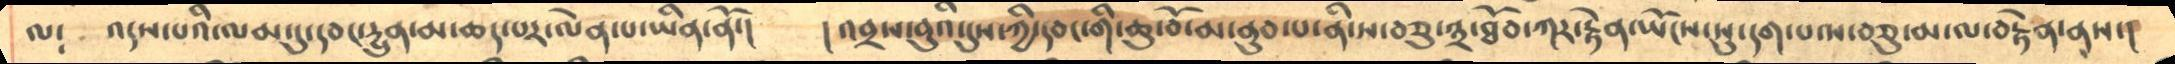ལ༴    འདས་པའི་ལམ་དུ་དབང་དྱུན་མ་ཆད་པར་ལེན་པ་ཡིན་ནོ་།    །འབྲས་བུའི་དུས་ཀྱི་དབང་གི་ཆུ་བོ་མ་ནུབ་པ་ནི་ས་བཅུ་༣་ཐོབ་ཀར་རྟེན་ཡོངས་སུ་དག་པ་ས་བཅུ་མ་ལ་བརྟེན་ནས་།
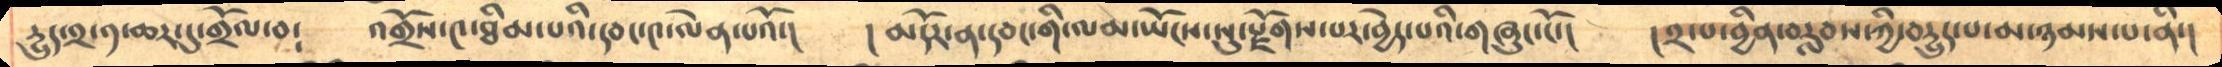དྱུད་༢་༡་ཆར་དུ་གྲོལ་བ༴     འགྲོས་༤་ཐིམ་པའི་དབང་༤་ལེན་པའོ་།   །མདོར་ན་དབང་གི་ལམ་ཡོངས་སུ་རྫོགས་པར་བྱེད་པའི་གཞུང་ངོ་།    །༢་པ་བྱིན་བརླབས་ཀྱི་བདྱུད་པ་མ་ཉམས་པ་ནི་།
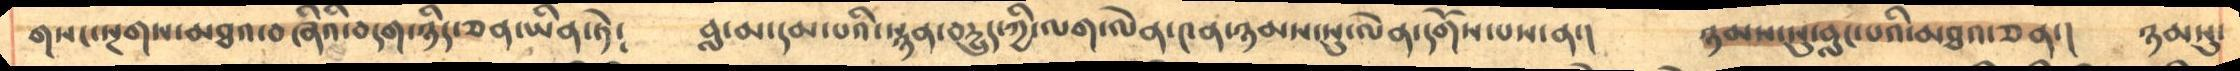གསང་སྔགས་མཐའ་བཞིའི་བདག་ཉིད་ཅན་ཡིན་ཏེ༴    བླ་མ་དམ་པའི་སྙན་བདྱུད་ཀྱི་ལག་ལེན་༤ན་ཉམས་སུ་ལེན་དགོས་པས་ན་།    ཉམས་སུ་བླང་པའི་མཐའ་ཅན་།   ཉམསུ་
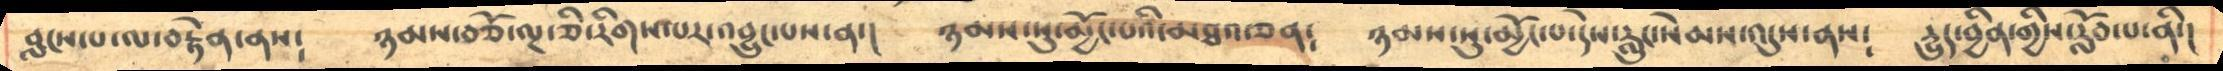བླངས་པ་ལ་བརྟེན་ནས༴    ཉམས་བཅོ་ལྔ་ཅི་རིགས་པར་འབྱུང་པས་ན་།    ཉམས་སུ་མྱོང་པའི་མཐའ་ཅན༴   ཉམས་སུ་མྱོང་པ་དེས་རླུང་སེམས་འདུས་ནས༴    རླུད་བྱིན་གྱིས་རློབ་པ་ནི་།
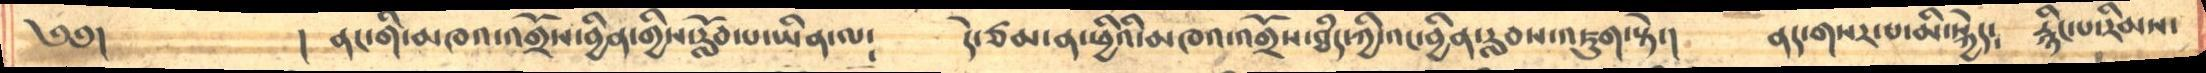༄༅།          ། ནང་གི་མཁའ་འགྲོས་བྱིན་གྱིས་རློབ་པ་ཡིན་ལ༴    དེ་ཙམ་ན་ཕྱིའི་མཁའ་འགྲོས་ཐཾད་ཀྱི་འང་བྱིན་རླབས་འཇུག་སྟེ་།   ནད་གསར་པ་མི་སྐྱེད༴   རྙིང་པ་རིམས་
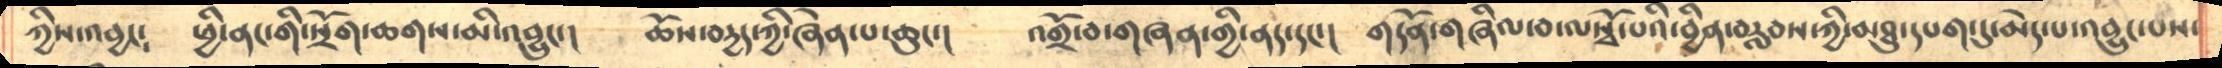ཀྱིས་འབྱང༴   ཕྱི་ནང་གི་སྲོག་ཆགས་མི་འབྱུང་།    ཆོས་བདྱད་ཀྱི་ཞེན་པ་ཆུང་།    འགྲོ་བ་གཞན་གྱི་ནད་དང་།    གདོན་གཞིལ་བ་ལསྭོ་པའི་བྱིན་བརླབས་ཀྱི་མཐུ་དཔག་དུ་མེད་པ་འབྱུང་པས་
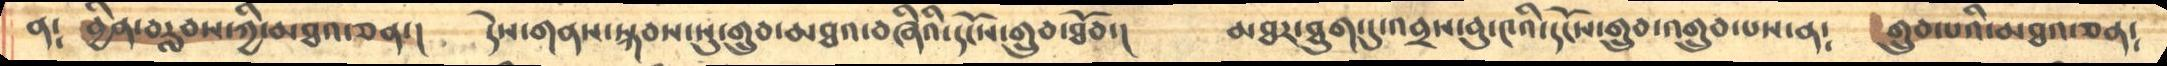ན༴   བྱིན་བརླབས་ཀྱི་མཐའ་ཅན་།    དེས་གནས་སྐབས་སུ་གྲུབ་མཐའ་བཞིའི་དངོས་གྲུབ་ཐོབ་།     མཐར་ཐུག་དུ་འབྲས་བུ་༤འི་དངོས་གྲུབ་འགྲུབ་པས་ན༴   གྲུབ་པའི་མཐའ་ཅན༴
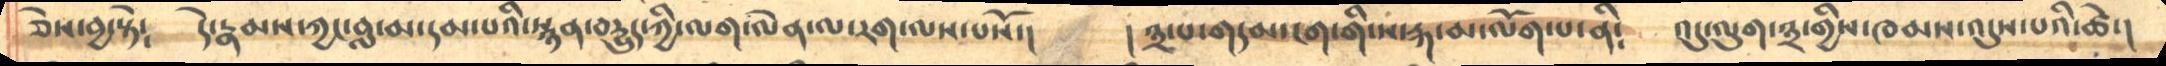ཅེས་བྱ་སྟེ༴   དེ་རྣམས་ཀྱང་བླ་མ་དམ་པའི་སྙན་བདྱུད་ཀྱི་ལག་ལེན་ལ་རག་ལས་པསོ་།    །༣་པ་གདམ་ངག་གི་ས་རྐ་མ་ལོག་པ་ནི༴    འདུ་ལུག་༣་གྱིས་ཁམས་འདུས་པའི་ཚེ་།
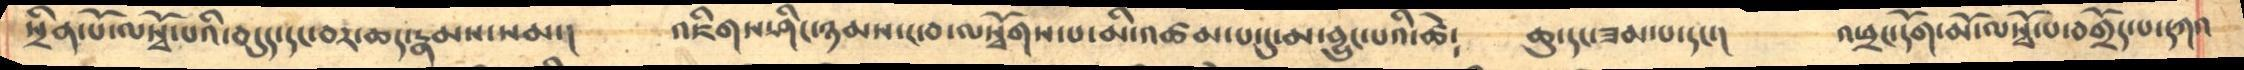སྲིན་པོ་ལསྭོ་པའི་བདུད་དང་བར་ཆད་རྣམས་སམ་།    འཇིགས་ཤིང་ཉམས་ང་བ་ལསྭོགས་པ་མི་འཚམ་པ་དུ་མ་བྱུང་པའི་ཚེ༴    ཆུ་དང་ཟམ་པ་དང་།    འཕྲང་དོག་མོ་ལསྭོ་པ་བགྲོད་པ་དཀའ
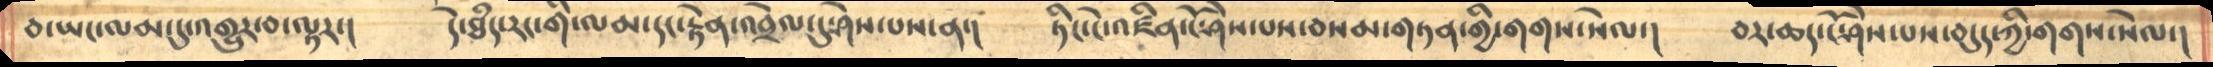བ་ཡང་ལམ་དུ་འགྱུར་བ་ལྟར་།     དེ་ཐཾད་དང་གི་ལམ་དང་རྟེན་འབྲེལ་དུ་ཤེས་པས་ན་།    ཏིང་ངེ་འཛིན་ངོ་ཤེས་པས་བསམ་གཏན་གྱི་གགས་སེལ་།    བར་ཆད་ངོ་ཤེས་པས་བདུད་ཀྱི་གགས་སེལ་།
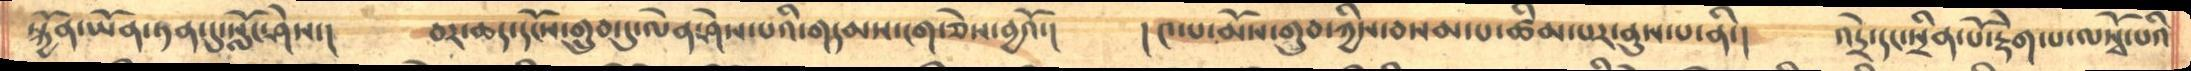སྐྱོན་ཡོན་ཏན་དུ་སློང་ཤེས་།    བར་ཆད་དངོས་གྲུབ་དུ་ལེན་ཤེས་པའི་གདམས་ངག་ཅེས་བྱའོ་།    །༤་པ་མོས་གྲུབ་ཀྱིས་བསམ་པ་ཚིམ་པར་ནུས་པ་ནི་།  འདྲེ་དང་སྲིན་པོ་རྡེག་པ་ལསྭོ་པའི
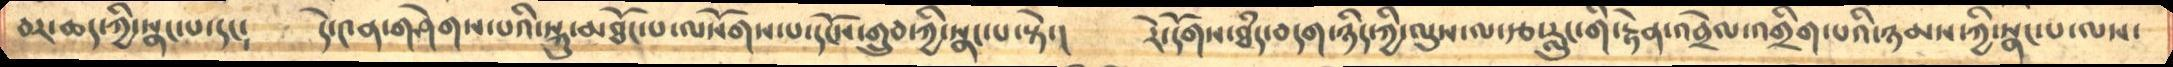བར་ཆད་ཀྱི་སྣང་པ་དང༴     དེ་༤ན་གཤེགས་པའི་སྐུ་མཐོང་པ་ལསོགས་པ་དངོས་གྲུབ་ཀྱི་སྣང་པ་སྟེ་།    རེ་དོགས་ཐཾད་བདག་ཉིད་ཀྱི་ལུས་ལ་རྩ་རླུང་གི་རྟེན་འབྲེལ་འགྲིག་པའི་ཉམས་ཀྱི་སྣང་བ་ལས་
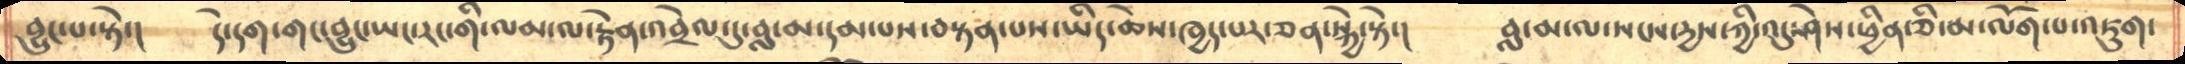བྱུང་པ་སྟེ་།     དེ་དག་གང་བྱུང་ཡང་རང་གི་ལམ་ལ་རྟེན་འབྲེལ་དུ་བླ་མ་དམ་པས་བསྟན་པས་ཡིད་ཆེས་ཁྱད་པར་ཅན་སྐྱེ་སྟེ་།    བླ་མ་ལ་སངས་དྱས་ཀྱི་འདུ་ཤེས་ཕྱིན་ཅི་མ་ལོག་པ་འཇུག་
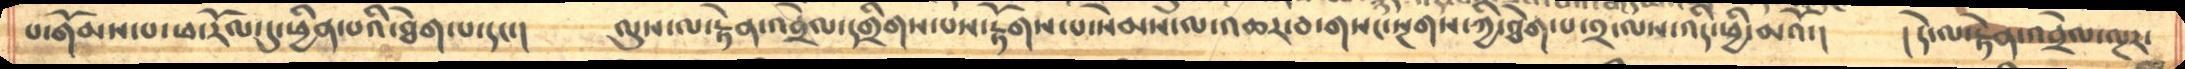པ་གོམས་པ་ཕ་རོལ་དུ་ཕྱིན་པའི་ཐེག་པ་དང་།     ལུས་ལ་རྟེན་འབྲེལ་དགྲིགས་པས་རྟོགས་པ་སེམས་ལ་འཆར་བ་གསང་སྔགས་ཀྱི་ཐེག་པ་༢་ལས་འདི་ཕྱི་མའོ་།   །དེ་ལ་རྟེན་འབྲེལ་ལྔར་
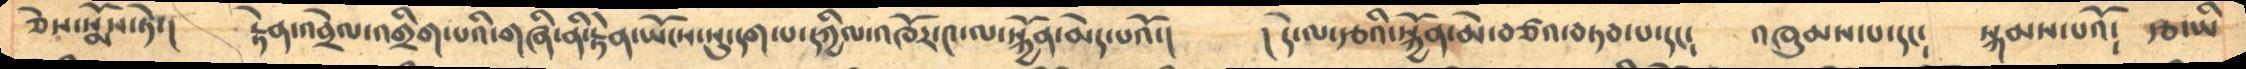ཅེས་སྨོས་ཏེ་།    རྟེན་འབྲེལ་འགྲིག་པའི་གཞི་ནི་རྟེན་ཡོངས་སུ་དག་པ་དཀྱིལ་འཁོར་༤་ལ་སྐྱོན་མེད་པའོ་།    །དེ་ལ་རྩའི་སྐྱོན་མེ་བཙའ་བཏབ་པ་དང༴   འཁུམས་པ་དང༴    སྐམས་པའོ༴   རྩ་ཡི
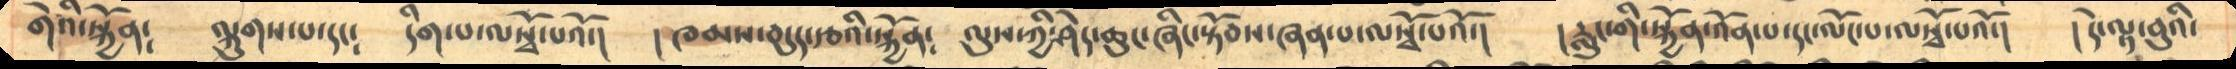གེའི་སྐྱོན༴    ལྐུགས་པ་དང༴   རིག་པ་ལསྭོ་པའོ་།  །ཁམས་བདུད་རྩའི་སྐྱོན༴    ལུས་ཀྱི་ཤེད་ཆུང་ཞིང་སྟོབས་ཞན་པ་ལསྭོ་པའོ་།   །རླུང་གི་སྐྱོན་འོན་པ་དང་ལོང་པ་ལསྭོ་པའོ་།   །དེ་ལྟ་བུའི་
